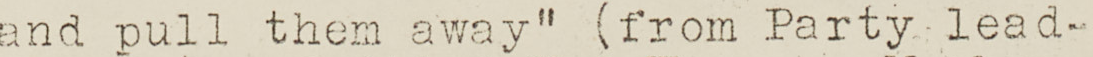and pull them away (from Party lead-
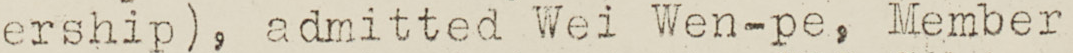ership), admitted Wei Wen-pe, Member
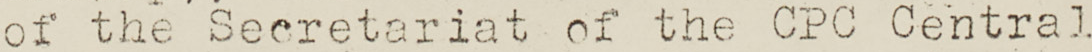of the Secretariat of the CPC Central
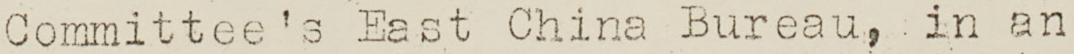Committee's East China Bureau, in an
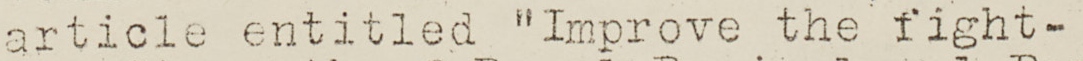article entitled "Improve the fight-
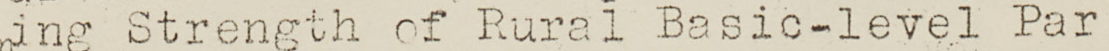ning Strength of Rural Basic level Par
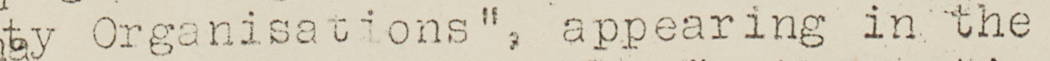ty Organisations", appearing in the
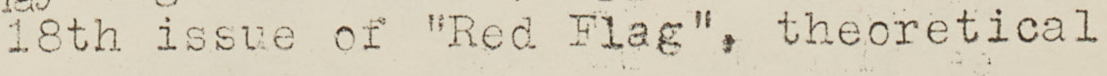18th issue of "Red Flag", theoretical
